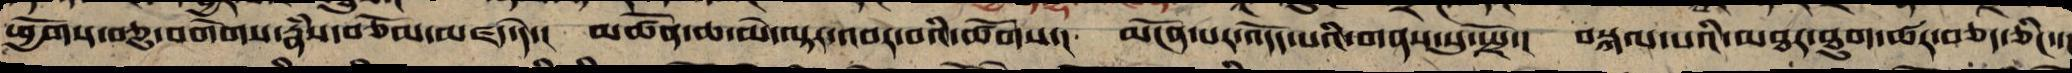ཕྱོགས་བཅུ་བགེགས་རྣཾས་བཅོམ་མཛད་དེ་། མཚོན་ཆ་མེ་ལྟར་འབར་བའི་ཚོགས་། མངོན་པར་འདོད་པའི་གནས་སུ་སྤྲོ་། བསྐལ་པའི་མཐར་ཐུག་ཚར་བཅད་ཅིང་་
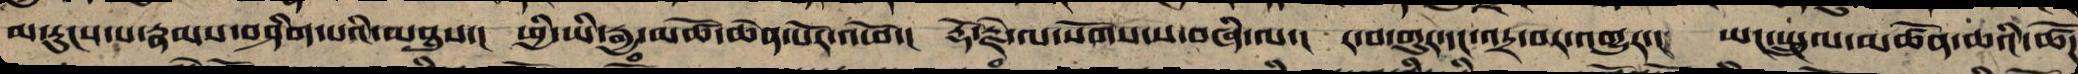མ་རུངས་པ་རྣམས་བཤིག་པའི་མཐུས་། ཕྱི་ཡི་རྒྱ་མཚོ་ཆེན་པོར་འཕོ་། རྡོ་རྗེ་ལ་སོགས་ས་བཞི་ལ་། ར་བ་གུར་དང་འདྲ་བར་འགྱུར་། ཡང་སྤྲུལ་མཚོན་ཆའི་ཚོཌ
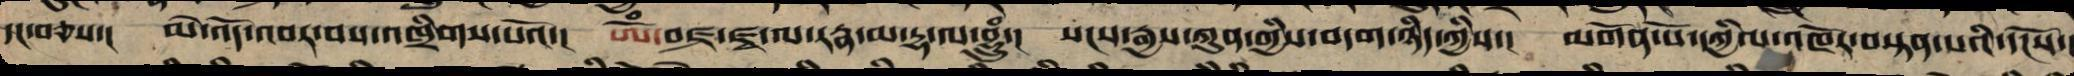དང་བཅས་། མེ་འོད་འབར་བས་འཁྲིགས་པའོ་། ཨོཾ་བཛྲ་ཛྭ་ལ་རཏྣ་མ་དྷ་ལ་བྷྲཱུཾ་། སངས་རྒྱས་ཀུན་གྱི་བདག་ཉིད་ཀྱིས་། མགོན་པོའི་དཀྱིལ་འཁོར་བསྟན་པའི་དངོས་
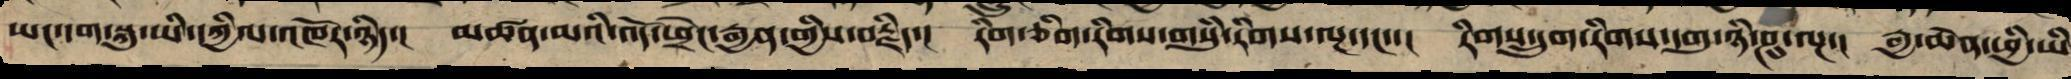ཡང་དག་སྐུ་ཡི་དཀྱིལ་འཁོར་ཉིད་། མཚན་མའི་འོད་ཕྲེང་རྒྱན་གྱིས་བརྗིད་། རིག་ཅིག་རིགས་གསུཾ་རིགས་ལྔ་དང་་། རིགས་དྲུག་རིགས་དགུ་ཉི་ཤུ་ལྔ་། རྒྱ་ཆེན་ཕྱི་ཡི
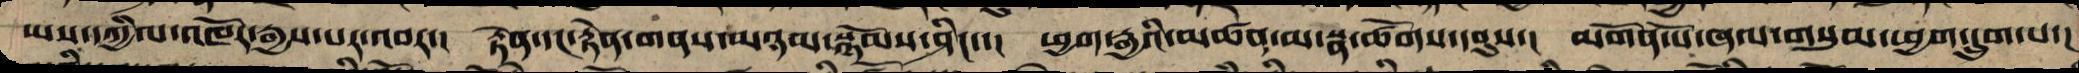ཡས་དཀྱིལ་འཁོར་རྒྱས་པར་འབར་། རྟེན་དང་རྟེན་གནས་མཉམ་སྙོམས་ཤིང་་། ཕྱག་རྒྱའི་མཚན་མ་སྣ་ཚོགས་དབུས་། མགོན་པོ་ཞལ་གསུམ་ཕྱག་དྲུག་པ་།
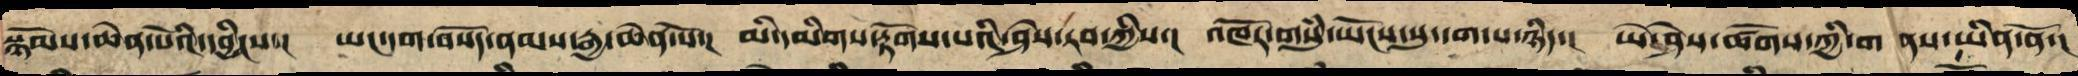སྙོམས་ཆེན་པོའི་དབྱིངས་། ཡང་དག་བསོད་ནམས་རྒྱ་ཆེན་པོ་། མི་དམིགས་རྟོགས་པའི་ཤེས་རབ་ཀྱིས་། འཁོར་གསུཾ་ཡོངས་སུ་དག་པ་ཉིད་། ཡེ་ཤེས་ཚོགས་ཀྱི་གནས་ཡིན་ནོ་།
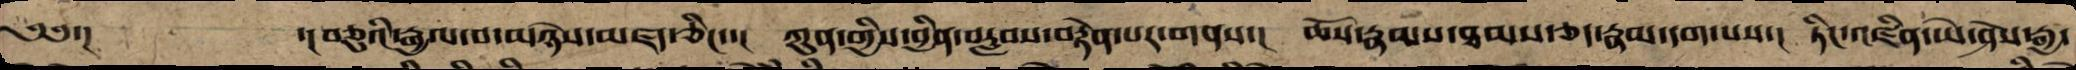༄༅་། ་།བཅུའི་རྒྱལ་བ་མཉེས་མཛད་ཅིང་་། ཀུན་གྱི་བྱིན་བརླབས་བརྟན་པར་གནས་། ཆོས་རྣམས་ཐམས་ཅད་རྣམ་དག་པའི་། ཏིང་འཛིན་ཡེ་ཤེས་རྒྱ་
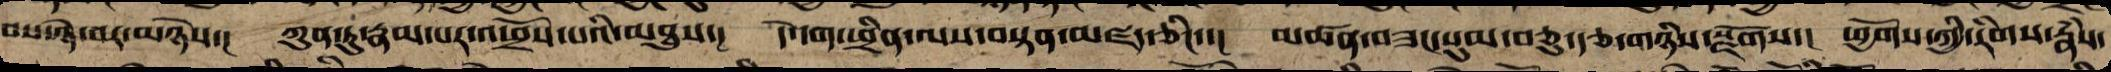བས་ཉེ་བར་མཉེས་། ཀུན་ཏུ་རྣམ་པར་འཕྲོས་པའི་མཐུས་། དེ་དག་ཕྲིན་ལས་བསྟན་མཛད་ཅིང་་། མཚན་བཟང་སུམ་ཅུ་རྩ་གཉིས་སྫོགས་། ཕྱོགས་ཀྱི་རིགས་རྣཾས་
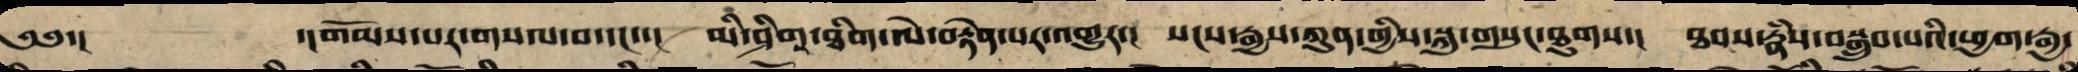༄༅་། ་།གོམས་པ་གསལ་བ་དང་་། མི་ཤིགས་ཐིག་ལེ་བརྟེན་པར་འགྱུར་། སངས་རྒྱས་ཀུན་གྱི་སྐུ་གསུང་ཐུགས་། ཐབས་རྣཾས་བསྒྲུབ་པའི་ཕྱག་རྒྱ་
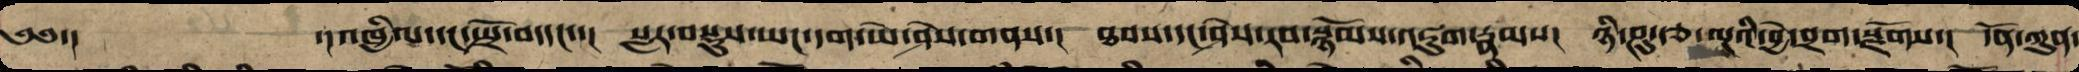༄༅་། འཁྱིལ་དང་སྤྲོ་བ་དང་་། སླར་བསྡུས་ཡང་དག་ཡེ་ཤེས་གནས་། ཐབས་དང་ཤེས་རབ་སྙོམས་འཇུག་རྣམས། ཉི་ཤུ་རྩ་ལྔའི་བྱེ་བྲག་སྫོགས་། དོན་ཀུན་
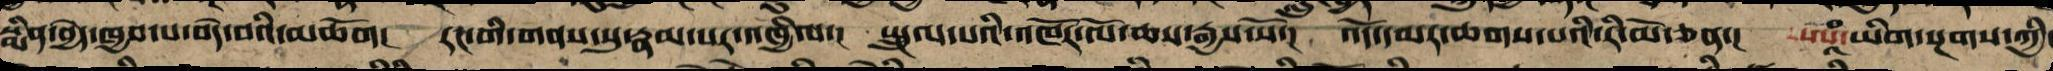སྨིན་བྱེད་ཁྱབ་པ་བདེ་བའི་མཆོག།  རང་གི་གནས་སུ་རྣམ་པར་འཁྱིལ་།  སྤྲུལ་པའི་འཁོར་ལོ་ཆས་རྒྱས་སོ་།  འོད་དམར་ཆགས་པའི་རི་མོ་ཅན་།  ཨཱཾ་ཡིག་སྔགས་ཀྱིས་
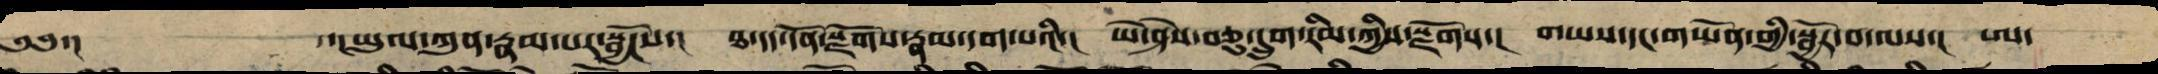༄༅་།         ་།ཡུལ་ཀུན་རྣམ་པར་སྦྱོངས་། ཐ་དད་དོན་སྫོགས་རྣམ་དག་པའི་། ཡེ་ཤེས་བཅུ་དྲུག་རིམ་གྱིས་སྫོགས་། གཡས་དང་གཡོན་གྱི་སྦྱོར་བ་ལས་། ཨ་
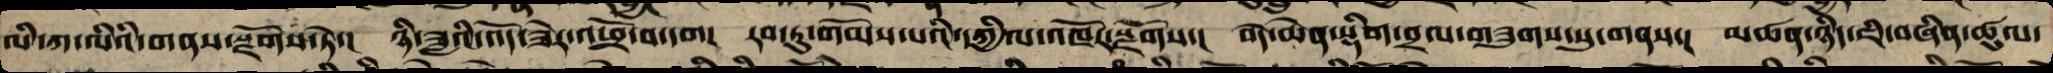ལི་ཀ་ལིའི་གནས་སྫོགས་ཏེ་། ཉི་ཟླའི་འོད་ཟེར་འཕྲོ་བ་དག། རབ་ཏུ་གོམས་པའི་དཀྱིལ་འཁོར་སྫོགས་། བདེ་ཆེན་སྡིག་བྲལ་གཟུགས་སུ་གནས་། མཚན་ཉིད་ཇི་བཞིན་ཚུལ་
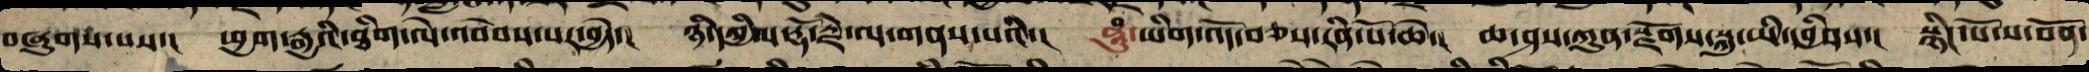བཞུགས་པས་། ཕྱག་རྒྱའི་ཐིག་ལེ་འབེབས་པར་བྱེད་། ཉི་དཀྱིལ་རྡོ་རྗེ་ལ་གནས་པའི་། ཧཱུྃ་ཡིག་འོད་བཅས་རིན་པོ་ཆེ་། ཆ་ཤས་ཀུན་སྫོགས་སྐུ་ཡི་དབྱིབས་། སྙིང་པོ་ས་བོན་
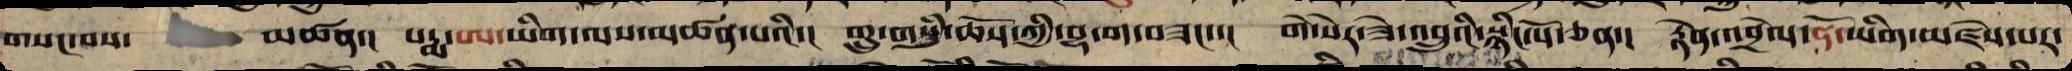གསང་བས་  མཚན་། པདྨ་ཨ་ཡིག་ལས་མཚན་པའི་། གྲུ་གསུཾ་ཆོས་ཀྱི་བྷ་ག་བཟང་་། གེ་སར་ཟེ་འབྲུའི་སྙིང་པོ་ཅན་། རྟེན་འབྲེལ་ཧོ་ཡིག་མཛེས་པར་
